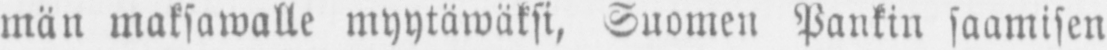män maksawalle myytäwäksi, Suomen Pankin saamisen
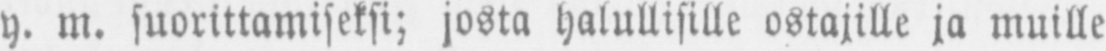y. m. suorittamiseksi; josta halullisille ostajille ja muille
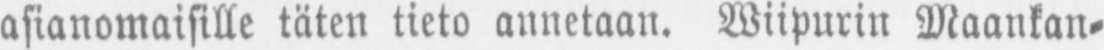asianomaisille täten tieto annetaan. Wiipurin Maankan-
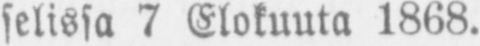selissa 7 Elokuuta 1868.
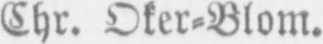Chr. Oker-Blom.
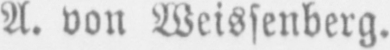A.von Weissenberg.
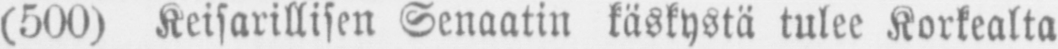(500) Keisarillisen Senaatin käskystä tulee Korkealta
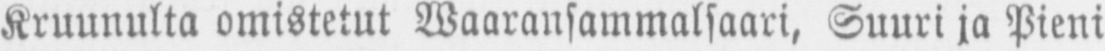Kruunulta omistetut Waaransammalsaari, Suuri ja Pieni
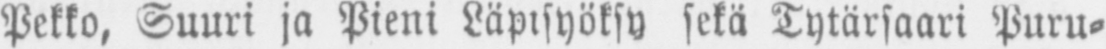Pekko, Suuri ja Pieni Läpisyöksy sekä Tytärsaari Puru-
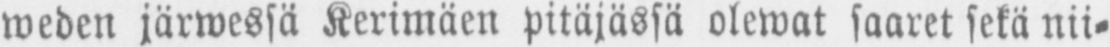weden järwessä Kerimäen pitäjässä olewat saaret sekä nii-
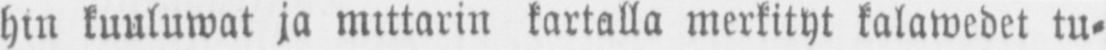hin kuuluwat ja mittarin kartalla merkityt kalawedet tu-
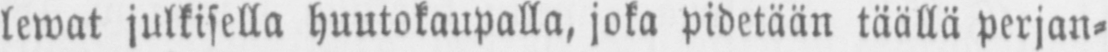lewat julkisella huutokaupalla, joka pidetään täällä perjan-
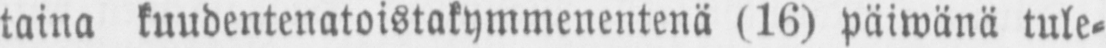taina kuudentenatoistakymmenentenä (16) päiwänä tule-
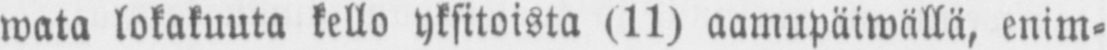wata lokakuuta kello yksitoista (11) aamupäiwällä, enim-
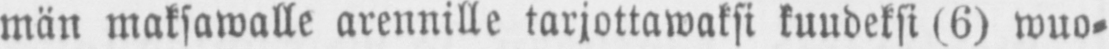män maksawalle arennille tarjottawaksi kuudeksi (6) wuo-
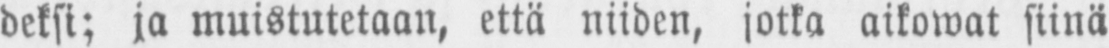deksi; ja muistutetaan, että niiden, jotka aikowat siinä
